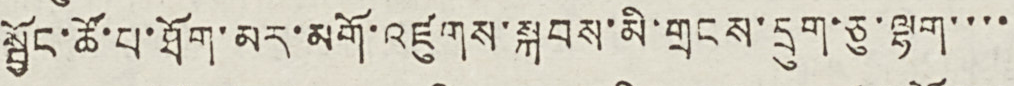སྦྱོང་ཚོ་བ་ཐོག་མར་མགོ་འཛུགས་སྐབས་མི་གྲངས་དྲུག་ཅུ་ལྷག་་་་
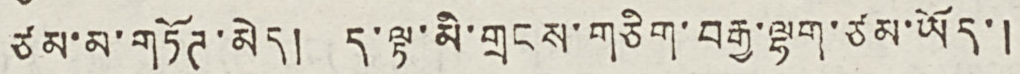ཙམ་མ་གཏོཊ་མེད། ད་ལྟ་མི་གྲངས་གཅིག་བརྒྱ་ལྷག་ཙམ་ཡོད་།
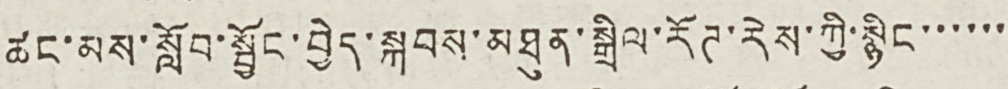ཚང་མས་སློབ་སྦྱོང་བྱེད་སྐབས་མཐུན་སྒྲིལ་རོཊ་རེས་ཀྱི་སྙིང་་་་་་
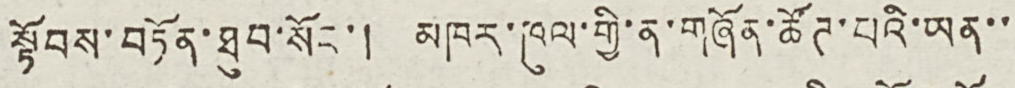སྟོབས་བཏོན་ཐུབ་སོང་། མཁར་ཁུལ་གྱི་ན་གཞོན་ཚོཊ་པའི་ཡན་་
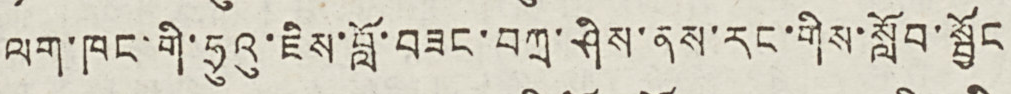ལག་ཁང་གི་ཧྲུའུ་ཇིས་བློ་བཟང་བཀྲ་ཤིས་ནས་རང་གིས་སློབ་སྦྱོང
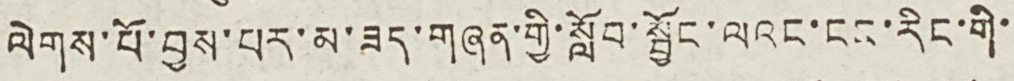ལེགས་པོ་བྱས་པར་མ་ཟད་གཞན་གྱི་སློབ་སྦྱོང་ལའང་ངང་རིང་གི་
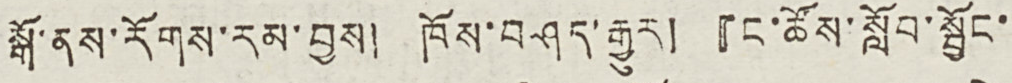སྒོ་ནས་རོགས་རམ་བྱས། ཁོས་བཤད་རྒྱུར། 『ང་ཚོས་སློབ་སྦྱོང་
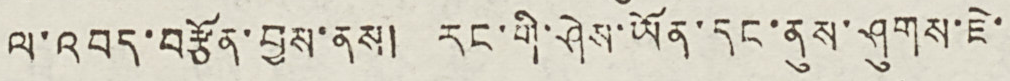ལ་འབད་བརྩོན་བྱས་ནས། རང་གི་ཤེས་ཡོན་དང་ནུས་ཤུགས་ཇེ་
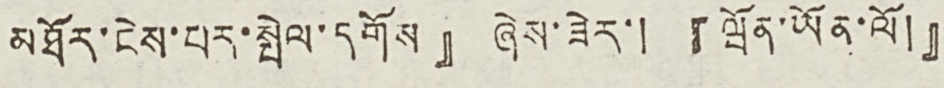མཐོར་ངེས་པར་སྤེལ་དགོས』ཞེས་ཟེར་། 『ཝོན་ཡོན་ལོ།』
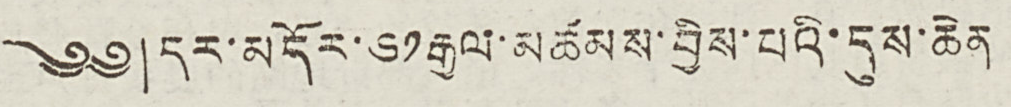༄༅། དར་མདོར་༦༡རྒྱལ་མཚམས་བྱིས་པའི་དུས་ཆེན
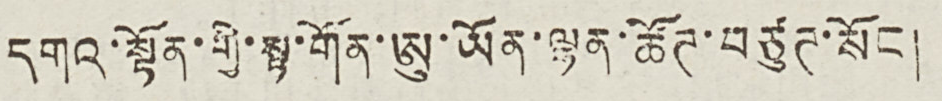དགའ་སྟོན་གྱི་སྟ་གོན་ཨུ་ཡོན་ལྷན་ཚོཊ་བཙུཊ་སོང །
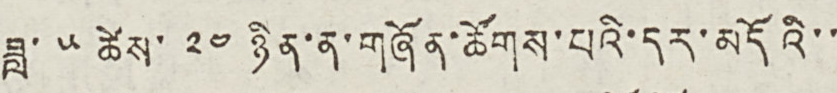ཟླ་ ༥ ཚེས་ ༢༤ ཉིན་ན་གཞོན་ཚོགས་པའི་དར་མདོའི་་
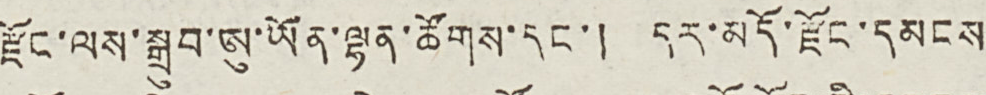རྫོང་ལས་སྒྲུབ་ཨུ་ཡོན་ལྷན་ཚོགས་དང་། དར་མདོ་རྫོང་དམངས
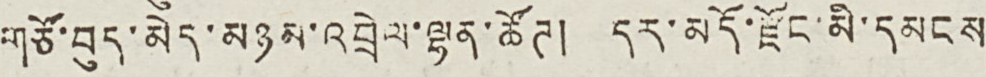གཙོ་བུད་མེད་མཉམ་འབྲེལ་ལྷན་ཚོཊ། དར་མདོ་རྫོང་མི་དམངས
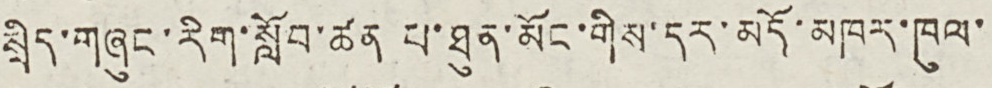སྲིད་གཞུང་རིག་སློབ་ཚན པ་ཐུན་མོང་གིས་དར་མཁར་ཁུལ་
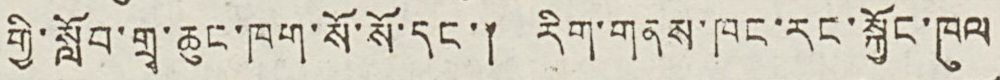གྱི་སློབ་གྲྭ་ཆུང་ཁག་སོ་སོ་དང་། རིག་གནས་ཁང་རང་སྐྱོང་ཁུལ
